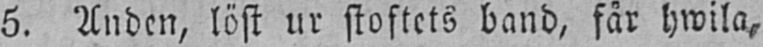5. Anden, löst ur stoftets band, får hwila,
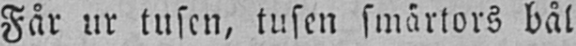Får ur tusen, tusen smärtors bål
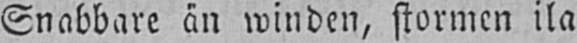Snabbare än winden, stormen ila
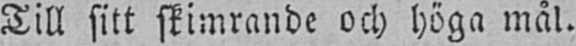Till sitt skimrande och höga mål.
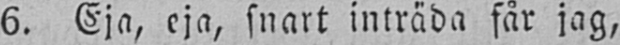6. Eja, eja, snart inträda får jag,
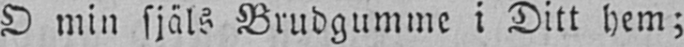O min själs Brudgumme i Ditt hem;
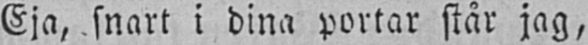Eja, snart i dina portar står jag,
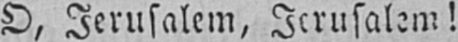O, Jerusalem, Jerusalem!
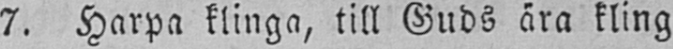7. Harpa klinga, till Guds ära klinga,
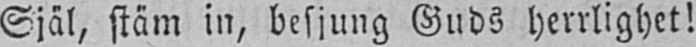Själ, stäm in, besjung Guds herrlighet!
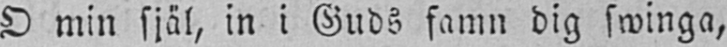O min själ, in i Guds famn dig swinga,
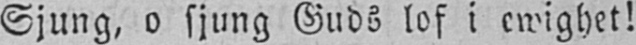Sjung, o sjung Guds lof i ewighet!
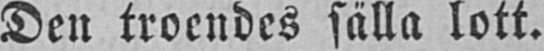Den troendes sälla lott.
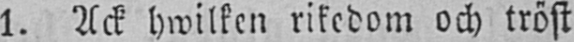1. Ack hwilken rikedom och tröst
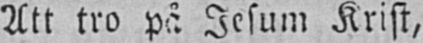Att tro på Jesum Krist,
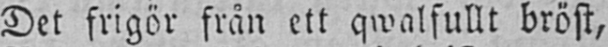Det frigör från ett qwalfullt bröst,
